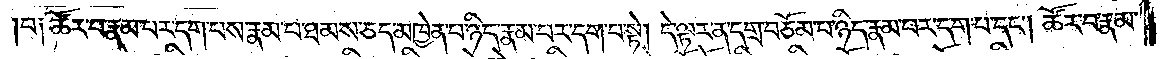པ༑ ཚོར་བ་རྣམ་པར་དག་པས་རྣམ་པ་ཐམས་ཅད་མཁྱེན་པ་ཉིད་རྣམ་པར་དག་པ་སྟེ། དེ་ལྟར་ན་དགྲ་བཅོམ་པ་ཉིད་རྣམ་པར་དག་པ་དང༌། ཚོར་བ་རྣམ་
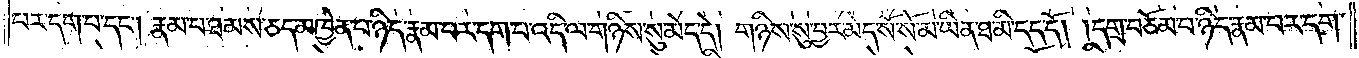པར་དག་པ་དང༌། རྣམ་པ་ཐམས་ཅད་མཁྱེན་པ་ཉིད་རྣམ་པར་དག་པ་འདི་ལ་གཉིས་སུ་མེད་དེ། གཉིས་སུ་བྱར་མེད་སོ་སོ་མ་ཡིན་ཐ་མི་དད་དོ། །དགྲ་བཅོམ་པ་ཉིད་རྣམ་པར་དག་
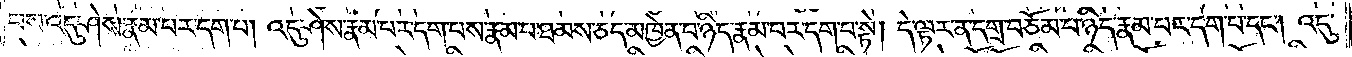པས་འདུ་ཤེས་རྣམ་པར་དག་པ། འདུ་ཤེས་རྣམ་པར་དག་པས་རྣམ་པ་ཐམས་ཅད་མཁྱེན་པ་ཉིད་རྣམ་པར་དག་པ་སྟེ། དེ་ལྟར་ན་དགྲ་བཅོམ་པ་ཉིད་རྣམ་པར་དག་པ་དང༌། འདུ་
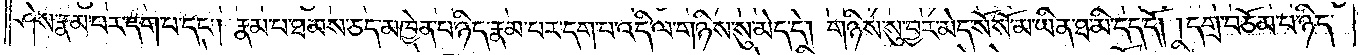ཤེས་རྣམ་པར་དག་པ་དང༌། རྣམ་པ་ཐམས་ཅད་མཁྱེན་པ་ཉིད་རྣམ་པར་དག་པ་འདི་ལ་གཉིས་སུ་མེད་དེ། གཉིས་སུ་བྱར་མེད་སོ་སོ་མ་ཡིན་ཐ་མི་དད་དོ། །དགྲ་བཅོམ་པ་ཉིད་
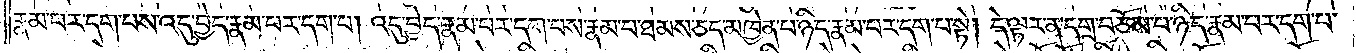རྣམ་པར་དག་པས་འདུ་བྱེད་རྣམ་པར་དག་པ། འདུ་བྱེད་རྣམ་པར་དག་པས་རྣམ་པ་ཐམས་ཅད་མཁྱེན་པ་ཉིད་རྣམ་པར་དག་པ་སྟེ། དེ་ལྟར་ན་དགྲ་བཅོམ་པ་ཉིད་རྣམ་པར་དག་པ་
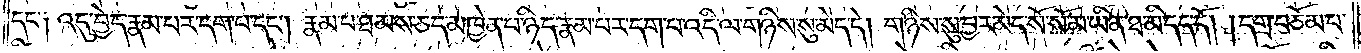དང་༑ འདུ་བྱེད་རྣམ་པར་དག་པ་དང༌། རྣམ་པ་ཐམས་ཅད་མཁྱེན་པ་ཉིད་རྣམ་པར་དག་པ་འདི་ལ་གཉིས་སུ་མེད་དེ། གཉིས་སུ་བྱར་མེད་སོ་སོ་མ་ཡིན་ཐ་མི་དད་དོ། །དགྲ་བཅོམ་པ་
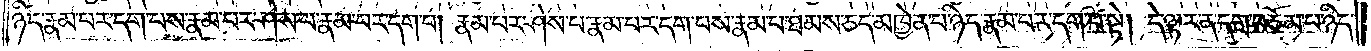ཉིད་རྣམ་པར་དག་པས་རྣམ་པར་ཤེས་པ་རྣམ་པར་དག་པ། རྣམ་པར་ཤེས་པ་རྣམ་པར་དག་པས་རྣམ་པ་ཐམས་ཅད་མཁྱེན་པ་ཉིད་རྣམ་པར་དག་པ་སྟེ། དེ་ལྟར་ན་དགྲ་བཅོམ་པ་ཉིད་
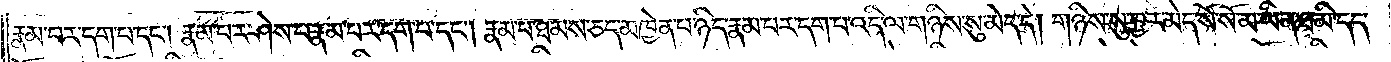རྣམ་པར་དག་པ་དང༌། རྣམ་པར་ཤེས་པ་རྣམ་པར་དག་པ་དང༌། རྣམ་པ་ཐམས་ཅད་མཁྱེན་པ་ཉིད་རྣམ་པར་དག་པ་འདི་ལ་གཉིས་སུ་མེད་དེ། གཉིས་སུ་བྱར་མེད་སོ་སོ་མ་ཡིན་ཐ་མི་དད་
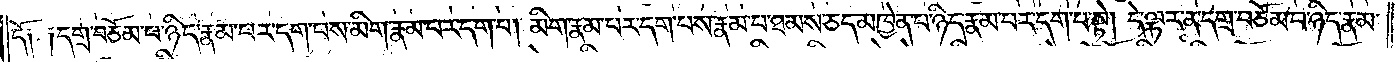དོ༑ ༑དགྲ་བཅོམ་པ་ཉིད་རྣམ་པར་དག་པས་མིག་རྣམ་པར་དག་པ། མིག་རྣམ་པར་དག་པས་རྣམ་པ་ཐམས་ཅད་མཁྱེན་པ་ཉིད་རྣམ་པར་དག་པ་སྟེ། དེ་ལྟར་ན་དགྲ་བཅོམ་པ་ཉིད་རྣམ་
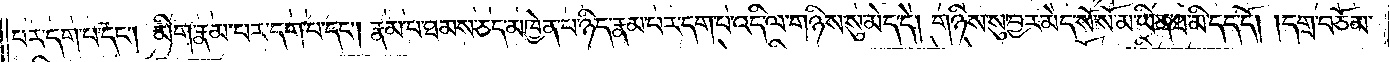པར་དག་པ་དང༌། མིག་རྣམ་པར་དག་པ་དང༌། རྣམ་པ་ཐམས་ཅད་མཁྱེན་པ་ཉིད་རྣམ་པར་དག་པ་འདི་ལ་གཉིས་སུ་མེད་དེ། གཉིས་སུ་བྱར་མེད་སོ་སོ་མ་ཡིན་ཐ་མི་དད་དོ། །དགྲ་བཅོམ་
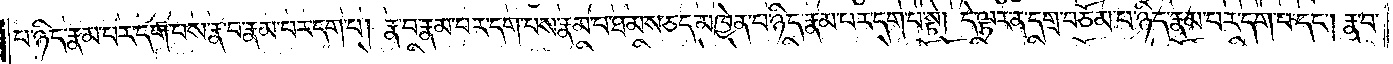པ་ཉིད་རྣམ་པར་དག་པས་རྣ་བ་རྣམ་པར་དག་པ། རྣ་བ་རྣམ་པར་དག་པས་རྣམ་པ་ཐམས་ཅད་མཁྱེན་པ་ཉིད་རྣམ་པར་དག་པ་སྟེ། དེ་ལྟར་ན་དགྲ་བཅོམ་པ་ཉིད་རྣམ་པར་དག་པ་དང༌། རྣ་བ་
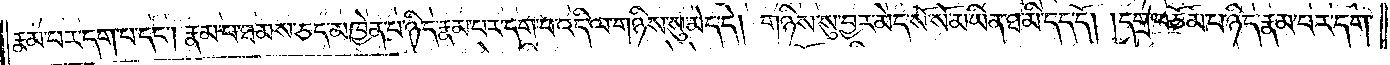རྣམ་པར་དག་པ་དང༌། རྣམ་པ་ཐམས་ཅད་མཁྱེན་པ་ཉིད་རྣམ་པར་དག་པ་འདི་ལ་གཉིས་སུ་མེད་དེ། གཉིས་སུ་བྱར་མེད་སོ་སོ་མ་ཡིན་ཐ་མི་དད་དོ། །དགྲ་བཅོམ་པ་ཉིད་རྣམ་པར་དག་
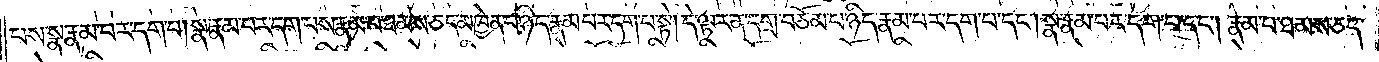པས་སྣ་རྣམ་པར་དག་པ། སྣ་རྣམ་པར་དག་པས་རྣམ་པ་ཐམས་ཅད་མཁྱེན་པ་ཉིད་རྣམ་པར་དག་པ་སྟེ། དེ་ལྟར་ན་དགྲ་བཅོམ་པ་ཉིད་རྣམ་པར་དག་པ་དང༌། སྣ་རྣམ་པར་དག་པ་དང༌། རྣམ་པ་ཐམས་ཅད་
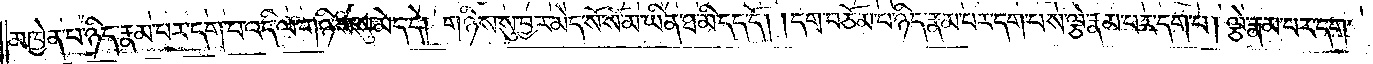མཁྱེན་པ་ཉིད་རྣམ་པར་དག་པ་འདི་ལ་གཉིས་སུ་མེད་དེ། གཉིས་སུ་བྱར་མེད་སོ་སོ་མ་ཡིན་ཐ་མི་དད་དོ། །དགྲ་བཅོམ་པ་ཉིད་རྣམ་པར་དག་པས་ལྕེ་རྣམ་པར་དག་པ། ལྕེ་རྣམ་པར་དག་
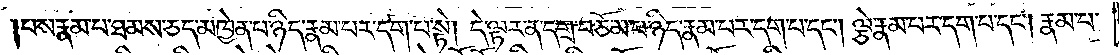པས་རྣམ་པ་ཐམས་ཅད་མཁྱེན་པ་ཉིད་རྣམ་པར་དག་པ་སྟེ། དེ་ལྟར་ན་དགྲ་བཅོམ་པ་ཉིད་རྣམ་པར་དག་པ་དང༌། ལྕེ་རྣམ་པར་དག་པ་དང༌། རྣམ་པ་
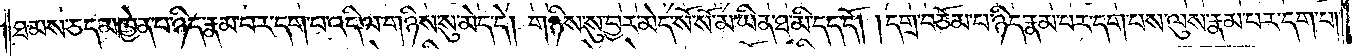ཐམས་ཅད་མཁྱེན་པ་ཉིད་རྣམ་པར་དག་པ་འདི་ལ་གཉིས་སུ་མེད་དེ། གཉིས་སུ་བྱར་མེད་སོ་སོ་མ་ཡིན་ཐ་མི་དད་དོ། །དགྲ་བཅོམ་པ་ཉིད་རྣམ་པར་དག་པས་ལུས་རྣམ་པར་དག་པ།
